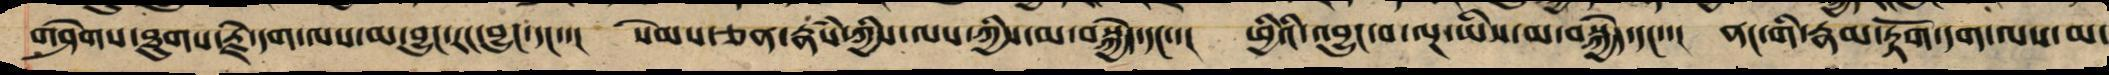གཤེགས་ཐུགས་རྗེ་དག་ལས་མ་བྱུང་རང་བྱུང་དང་་། སེམས་ཅན་རྣཾས་ཀྱིས་ལས་ཀྱིས་མ་བསྐྱེད་དང་་། ཕྱིའི་འབྱུང་བ་ལྔ་ཡིས་མ་བསྐྱེད་དང་་། ནང་གིས་རྣམ་རྟོག་དག་ལས་མ་
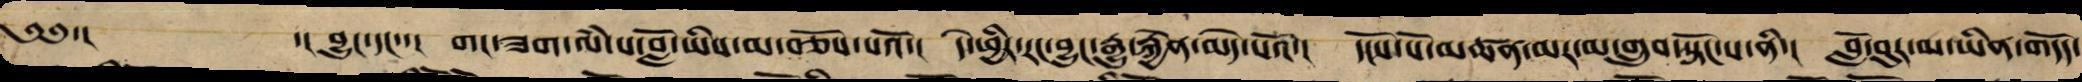༄༅་། ་། བྱུང་དང་་། གང་ཟག་ལཾ་པ་བློ་ཡིས་མ་བཅོས་པའོ་། དེ་ཕྱིར་རང་བྱུང་རྒྱུ་རྐྱེན་མེད་པའོ་། དངོས་པོ་མཚན་མར་མ་གྲུབ་སྟོང་པ་ནི་། བློ་བུར་མ་ཡིན་གདོད་
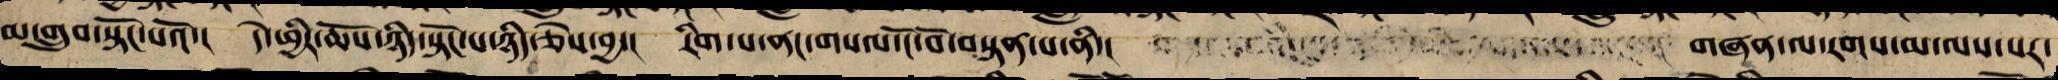མ་གྲུབ་སྟོང་པའོ་། དེ་ཕྱིར་ཆོས་ཉིད་སྟོང་པ་ཉིད་ཅེས་བྱ་། རིག་པ་ནང་གསལ་ངོ་བོ་བསྟན་པ་ནི་། གཞན་ལ་རགས་མ་ལས་པར་
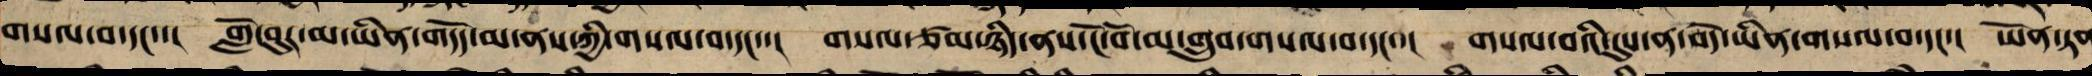གསལ་བ་དང་་། གློ་བུར་མ་ཡིན་གདོད་མ་ནས་ཀྱི་གསལ་བ་དང་་། གསལ་ཙམ་ཉིད་ནས་ངོ་བོ་མ་གྲུབ་གསལ་བ་དང་་། གསལ་བའི་དུས་ན་བདེ་ཡིན་གསལ་བ་དང་། ཡོན་ཏན
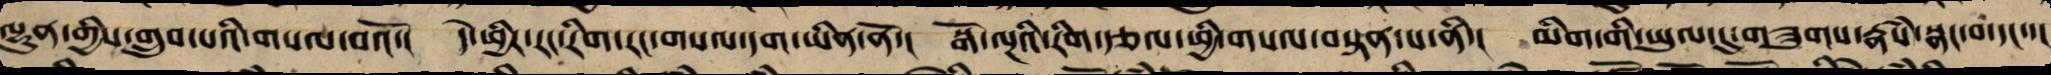ལྷུན་གྱིས་གྲུབ་པའི་གསལ་བའོ་། དེ་ཕྱིར་རང་རིག་རང་གསལ་དག་ཡིན་ནོ་། སྒོ་ལྔའི་རིག་རྩལ་ཕྱི་གསལ་བསྟན་པ་ནི་། མིག་གི་ཡུལ་དུ་གཟུགས་རྣཾས་སྣང་བ་དང་་།
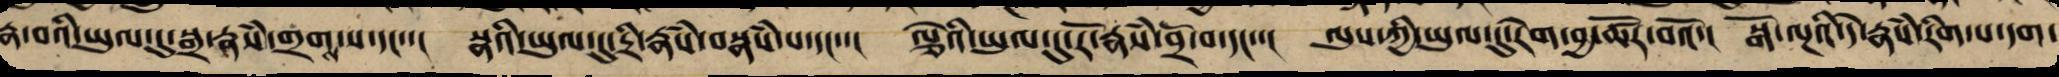རྣ་བའི་ཡུལ་དུ་སྒྲ་རྣཾས་གྲག་པ་དང་་། སྣའི་ཡུལ་དུ་དྲི་རྣཾས་བསྣཾས་པ་དང་་། ལྕེའི་ཡུལ་དུ་རོ་རྣཾས་བྲོ་བ་དང་་། ལུས་ཀྱི་ཡུལ་དུ་རེག་བྱ་ཚོར་བའོ་། སྒོ་ལྔའི་དེ་རྣཾས་རིག་པ་དག་
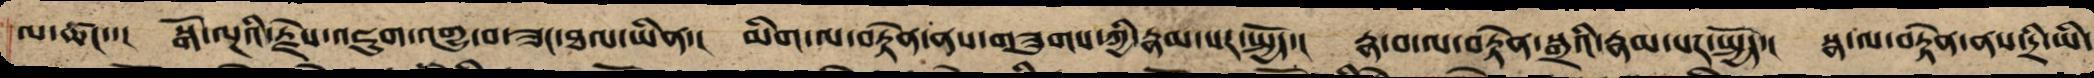ལ་ཚང་་། སྒོ་ལྔའི་རྗེས་འཇུག་འགྱུ་བ་ཟང་ཐལ་ཡིན་། མིག་ལ་བརྟེན་ནས་གཟུགས་ཀྱི་རྣམ་པར་སྤྱོད་། རྣ་བ་ལ་བརྟེན་སྒྲའི་རྣམ་པར་སྤྱོད་། སྣ་ལ་བརྟེན་ནས་དྲི་ཡི་
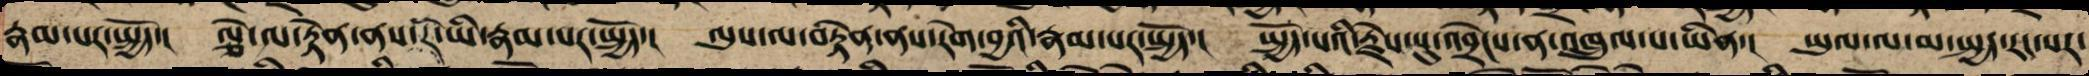རྣམ་པར་སྤྱོད་། ལྕེ་ལ་བརྟེན་ནས་རོ་ཡི་རྣམ་པར་སྤྱོད་། ལུས་ལ་བརྟེན་ནས་རེག་བྱའི་རྣམ་པར་སྤྱོད་། སྤྱོད་པའི་རྗེས་སུ་འབྲེངས་ན་འཁྲུལ་པ་ཡིན་། ཡུལ་ལ་མ་སྤྱད་རང་སར་
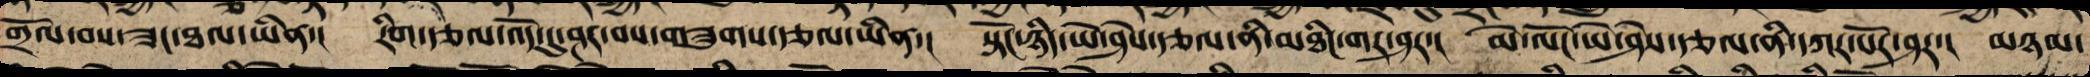གྲོལ་བས་ཟང་ཐལ་ཡིན་། རིག་རྩལ་འོད་དུ་ཤར་བས་གཟུགས་རྩལ་ཡིན་། སྟོང་ཉིད་ཡེ་ཤེས་རྩལ་ནི་མཐིང་གར་ཤར་། མེ་ལོང་ཡེ་ཤེས་རྩལ་ནི་དཀར་པོར་ཤར་། མཉམ་
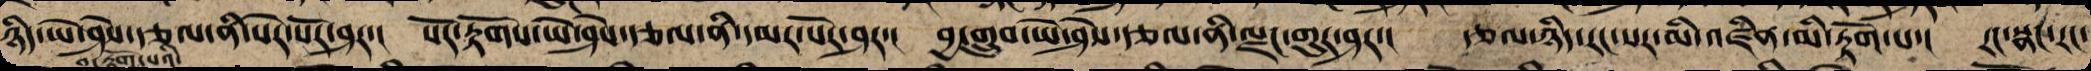ཉིད་ཡེ་ཤེས་རྩལ་ནི་སེར་པོར་ཤར་། སོར་རྟོག་ཡེ་ཤེས་རྩལ་ནི་དམར་པོར་ཤར་། བྱ་གྲུབ་ཡེ་ཤེས་རྩལ་ནི་ལྗང་གུར་ཤར་། རྩལ་གཉིས་རང་སར་མི་འཛིན་མི་རྟོག་པ་། རང་སྣང་རང་
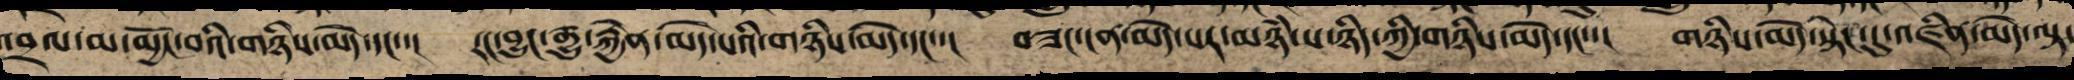འབྲལ་མ་མྱོང་བའི་གཉིས་མེད་དང་་། རང་བྱུང་རྒྱུ་རྐྱེན་མེད་པའི་གཉིས་མེད་དང་་། བཟང་ངན་མེད་པས་མཉཾ་པ་ཉིད་ཀྱི་གཉིས་མེད་དང་་། གཉིས་མེད་སྟེང་དུ་འཛིན་མེད་ལྟ་
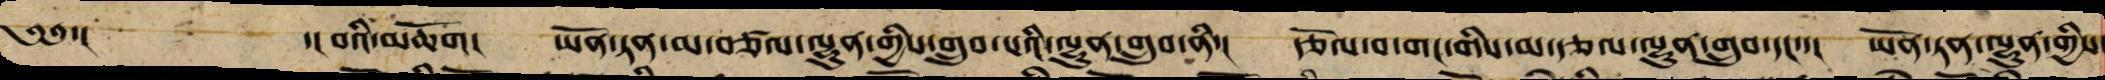༄༅་། ་། བའི་མཆོག། ཡོན་ཏན་མ་བཙལ་ལྷུན་གྱིས་གྲུབ་པའི་ལྷུན་གྲུབ་ནི་། རྩོལ་བ་གང་གིས་མ་རྩལ་ལྷུན་གྲུབ་དང་་། ཡོན་ཏན་ལྷུན་གྱིས་
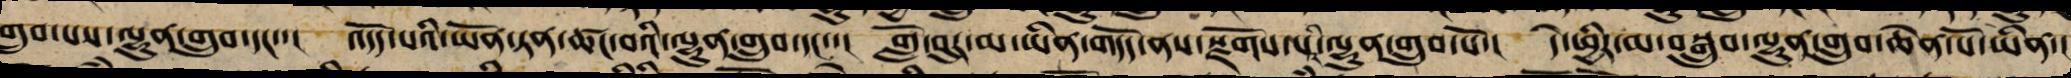གྲུབ་པས་ལྷུན་གྲུབ་དང་་། འདོད་པའི་ཡོན་ཏན་ཚང་བའི་ལྷུན་གྲུབ་དང་་། གློ་བུར་མ་ཡིན་གདོད་ནས་སྫོགས་པའི་ལྷུན་གྲུབ་པོ་། དེ་ཕྱིར་མ་བསྒྲུབ་ལྷུན་གྲུབ་ཆེན་པོ་ཡིན་།
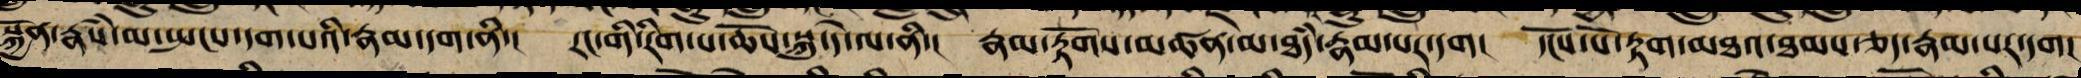སྐྱོན་རྣཾས་མ་སྤངས་དག་པའི་རྣམ་དག་ནི་། རང་གི་རིག་པ་ཆོས་སྐུ་དེ་ལ་ནི་། རྣམ་རྟོགས་མཚན་མ་ཐཾད་རྣམ་པར་དག། དངོས་པོ་རྟག་མཐའ་ཐམས་ཅད་རྣམ་པར་དག།
